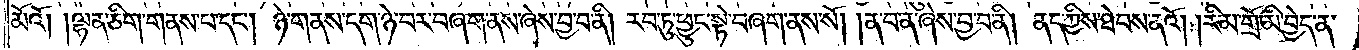མོའོ། །ལྷན་ཅིག་གནས་པ་དང༌། ཉེ་གནས་དག་ཉེ་བར་བཞག་ནས་ཞེས་བྱ་བ་ནི། རབ་ཏུ་ཕྱུང་སྟེ་བཞག་ནས་སོ། །ན་བ་ན་ཞེས་བྱ་བ་ནི། ནད་ཀྱིས་ཐེབས་ནའོ། །རིམ་གྲོ་མི་བྱེད་ན་
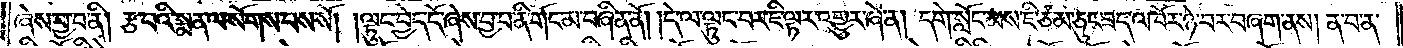ཞེས་བྱ་བ་ནི། རྩ་བའི་སྨན་ལ་སོགས་པས་སོ། །ལྟུང་བྱེད་དོ་ཞེས་བྱ་བ་ནི་གོང་མ་བཞིན་ནོ། །དེ་ལ་ལྟུང་བར་ཇི་ལྟར་འགྱུར་ཞེ་ན། དགེ་སློང་མས་ཇི་ཙམ་ཅུང་ཟད་འཁོར་ཉེ་བར་བཞག་ནས། ན་བ་ན་
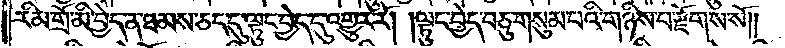རིམ་གྲོ་མི་བྱེད་ན་ཐམས་ཅད་དུ་ལྟུང་བྱེད་དུ་འགྱུར་རོ། །ལྟུང་བྱེད་བཅུ་གསུམ་པའི་གཉིས་པ་རྫོགས་སོ༎
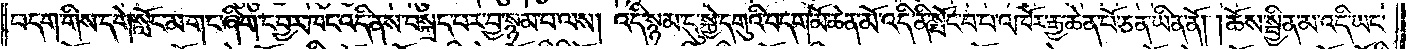བདག་གིས་དགེ་སློང་མ་གང་ཞིག་དབྱར་ཁང་འདི་ནས་བསྐྲད་པར་བྱ་སྙམ་པ་ལས། འདི་སྙམ་དུ་སྐྱེ་དགུའི་བདག་མོ་ཆེན་མོ་འདི་ནི་སྤོང་བ་པ་འཁོར་རྒྱ་ཆེན་པོ་ཅན་ཡིན་ནོ། །ཆོས་སྦྱིན་མ་འདི་ཡང་
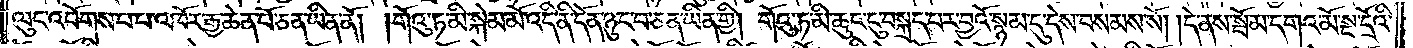ལུང་འབོགས་པ་པ་འཁོར་རྒྱ་ཆེན་པོ་ཅན་ཡིན་ནོ། །གོའུ་ཏ་མི་སྐེམ་མོ་འདི་ནི་དོན་ཉུང་བ་ཅན་ཡིན་གྱི། གོའུ་ཏ་མི་ཆུང་ངུ་བསྐྲད་པར་བྱའོ་སྙམ་དུ་དེས་བསམས་སོ། །དེ་ནས་སྦོམ་དགའ་མོ་སྔ་དྲོའི་
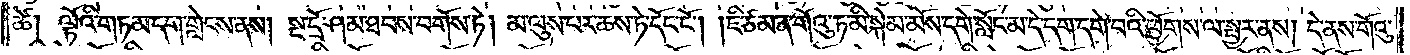ཚེ། ལྟོའི་གཏམ་དག་གླེངས་ནས། སྔ་དྲོ་ཤམ་ཐབས་བགོས་ཏེ། མ་ལུས་པར་ཆས་ཏེ་དོང་ངོ༌། །ཇི་ཙམ་ན་གོའུ་ཏ་མི་སྐེམ་མོས་དགེ་སློང་མ་དེ་དག་དགེ་བའི་ཕྱོགས་ལ་སྦྱར་ནས། དེ་ནས་གོའུ་
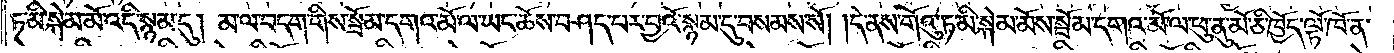ཏ་མི་སྐེམ་མོ་འདི་སྙམ་དུ། མ་ལ་བདག་གིས་སྦོམ་དགའ་མོ་ལ་ཡང་ཆོས་བཤད་པར་བྱའོ་སྙམ་དུ་བསམས་སོ། །དེ་ནས་གོའུ་ཏ་མི་སྐེམ་སྦོམ་དགའ་མོ་ལ་ཕུ་ནུ་མོ་ཅི་ཁྱོད་ལྟོ་ཁོ་ན་
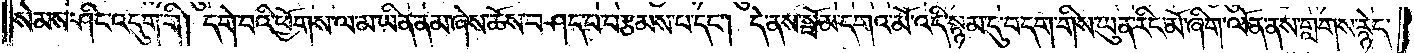སེམས་ཤིང་འདུག་གི །དགེ་བའི་ལ་མ་ཡིན་ནམ་ཞེས་ཆོས་བཤད་པ་བརྩམས་པ་དང༌། དེ་ནས་སྦོམ་དགའ་མོ་འདི་སྙམ་དུ་བདག་གིས་ཡུན་རིང་མོ་ཞིག་ལོན་ནས་གླགས་རྙེད་
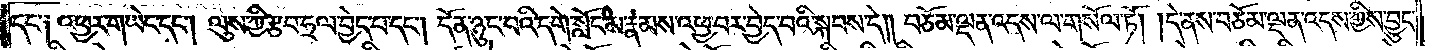དང་༑ འཕྱར་གཡེང་དང༌། ལུས་ཀྱི་རྩབ་ཧྲལ་བྱེད་པ་དང༌། དོན་ཉུང་བའི་དགེ་སློང་མ་རྣམས་འཕྱ་བར་བྱེད་པའི་སྐབས་དེ། བཅོམ་ལྡན་འདས་ལ་གསོལ་ཏོ། །དེ་ནས་བཅོམ་ལྡན་འདས་ཀྱིས་བྱུང་
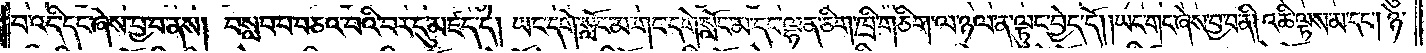བ་འདི་དང་ཞེས་བྱ་བ་ནས། བསླབ་པ་བཅའ་བའི་བར་དུ་མཛད་དེ། ཡང་དགེ་སློང་མ་གང་དགེ་སློང་མ་དང་ལྷན་ཅིག་ཁྲི་གཅིག་ལ་ཉལ་ན་ལྟུང་བྱེད་དོ། །ཡང་གང་ཞེས་བྱ་བ་ནི། འཆི་ལྟས་མ་དང༌། ཉེ་
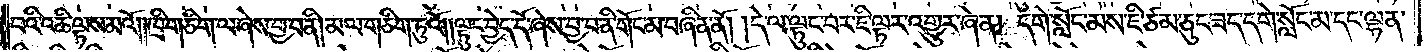བའི་འཆི་ལྟས་མའོ། །ཁྲི་གཅིག་ལ་ཞེས་བྱ་བ་ནི། མལ་གཅིག་ཏུའོ། །ལྟུང་བྱེད་དོ་ཞེས་བྱ་བ་ནི་གོང་མ་བཞིན་ནོ། །དེ་ལ་ལྟུང་བར་ཇི་ལྟར་འགྱུར་ཞེ་ན། དགེ་སློང་མས་ཇི་ཙམ་ཅུང་ཟད་དགེ་སློང་མ་དང་ལྷན་
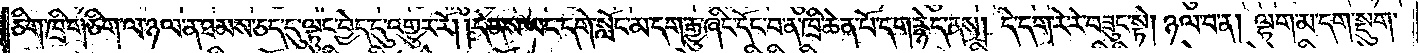ཅིག་ཁྲི་གཅིག་ལ་ཉལ་ན་ཐམས་ཅད་དུ་ལྟུང་བྱེད་དུ་འགྱུར་རོ། །དེ་ནས་ཡང་དགེ་སློང་མ་དག་རྒྱུ་ཞིང་དོང་བ་ན་ཁྲི་ཆེན་པོ་དག་རྙེད་ནས། དེ་དག་རེ་རེ་བཟུང་སྟེ། ཉལ་བ་ན། ལྷག་མ་དག་སྡུག་
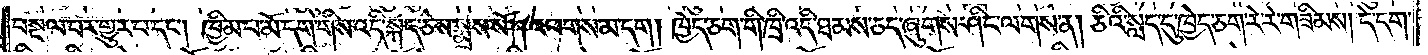བསྔལ་བར་གྱུར་པ་དང༌། ཁྱིམ་པ་མོ་དག་གིས་འདི་སྐད་ཅེས་སྨྲས་སོ། །འཕགས་མ་དག། ཁྱེད་ཅག་གི་ཁྲི་འདི་ཐམས་ཅད་ཞུགས་ཤིང་ལགས་ན། ཅིའི་སླད་དུ་ཁྱེད་ཅག་རེ་རེ་གཟིམས། དེ་དག་
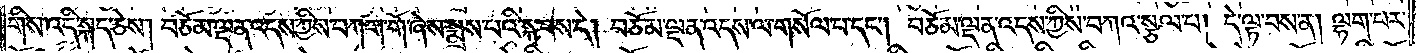གིས་འདི་སྐད་ཅེས། བཅོམ་ལྡན་འདས་ཀྱིས་བཀག་གོ་ཞེས་སྨྲས་པའི་སྐབས་དེ། བཅོམ་ལྡན་འདས་ལ་གསོལ་པ་དང༌། བཅོམ་ལྡན་འདས་ཀྱིས་བཀའ་སྩལ་པ། དེ་ལྟ་བས་ན། ལྷག་པར་
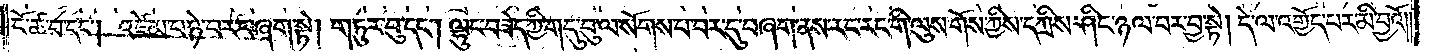ངོ་ཚ་བ་དང༌། འཛེམ་པ་ཉེ་བར་བཞག་སྟེ། གཏུར་བུ་དང༌། ལྷུང་བཟེད་ཀྱི་གདུ་བུ་ལ་སོགས་པ་བར་དུ་བཞག་ནས་རང་རང་གི་ལུས་གོས་ཀྱིས་དཀྲིས་ཤིང་ཉལ་བར་བྱ་སྟེ། དེ་ལ་འགྱོད་པར་མི་བྱའོ༎
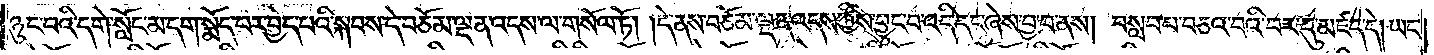ཉུང་བའི་དགེ་སློང་མ་དག་སྨོད་པར་བྱེད་པའི་སྐབས་དེ་བཅོམ་ལྡན་འདས་ལ་གསོལ་ཏོ། །དེ་ནས་བཅོམ་ལྡན་འདས་ཀྱིས་བྱུང་བ་འདི་དང་ཞེས་བྱ་བ་ནས། བསླབ་པ་བཅའ་བའི་བར་དུ་མཛད་དེ།ཡང་
